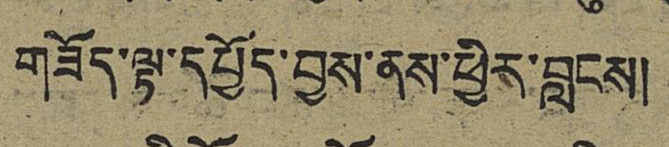གཟོད་ལྟ་དཔྱོད་བྱས་ནས་ཕྱིར་བླངས།
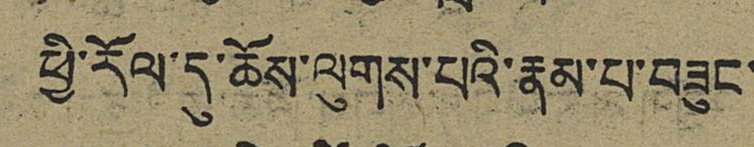ཕྱི་རོལ་དུ་ཆོས་ལུགས་པའི་རྣམ་པ་བཟུང་
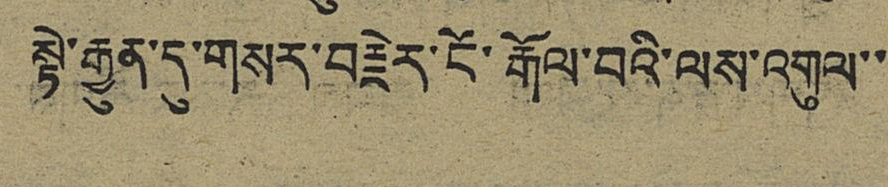སྟེ་རྒྱུན་དུ་གསར་བརྗེར་ངོ་རྒོལ་བའི་ལས་འགུལ་་
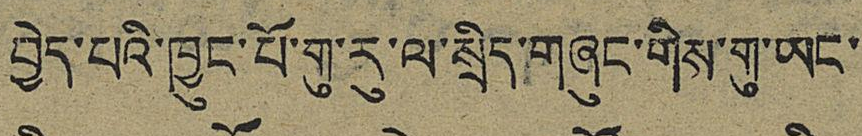བྱེད་པའི་ཁྱུང་པོ་གུ་རུ་ལ་སྲིད་གཞུང་གིས་གུ་ཡང་
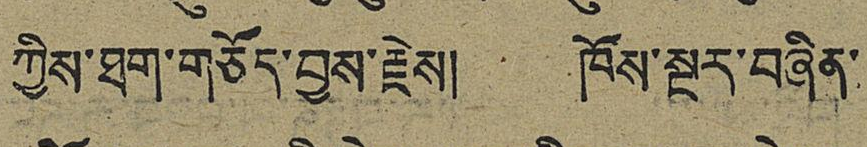ཀྱིས་ཐག་གཅོད་བྱས་རྗེས། ཁོས་སྔར་བཞིན་
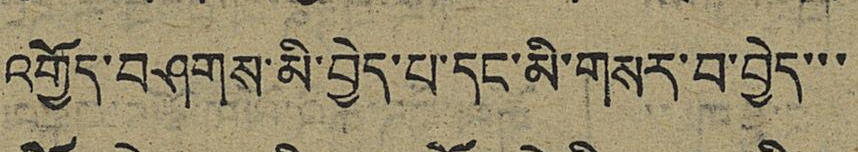འགྱོད་བཤགས་མི་བྱེད་པ་དང་མི་གསར་བ་བྱེད་་་
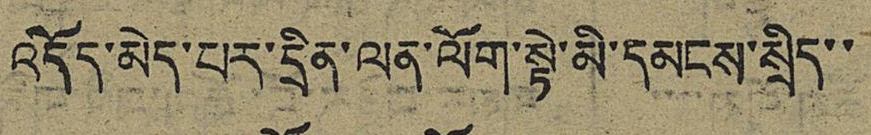འདོད་མེད་པར་དྲིན་ལན་ལོག་སྟེ་མི་དམངས་སྲིད་་
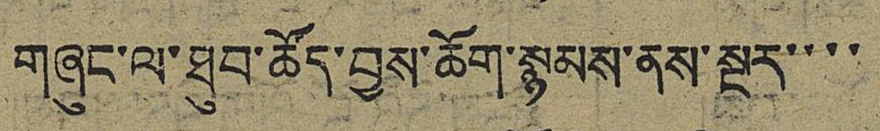གཞུང་ལ་ཐུབ་ཚོད་བྱས་ཆོག་སྙམས་ནས་སྔར་་་་
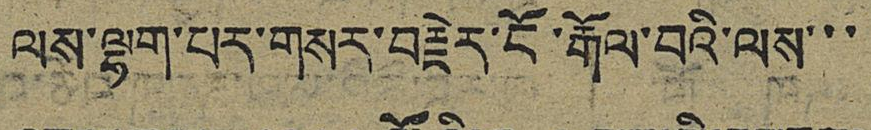ལས་ལྷག་པར་གསར་བརྗེར་ངོ་རྒོལ་བའི་ལས་་་
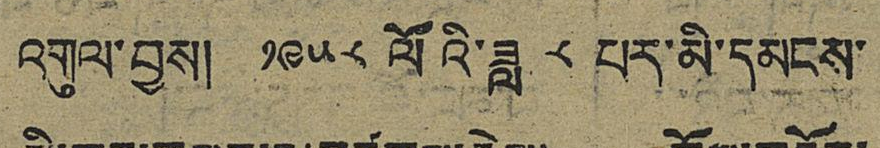འགུལ་བྱས། ༡༩༥༨ ལོའི་ཟླ ༨ པར་མི་དམངས་
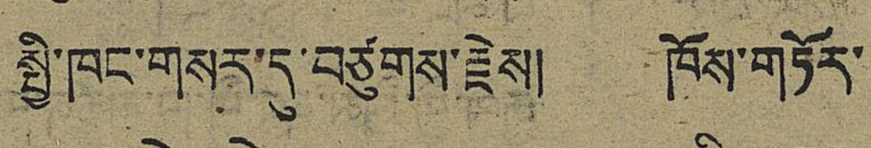སྤྱི་ཁང་གསར་དུ་བཙུགས་རྗེས། ཁོས་གཏོར་
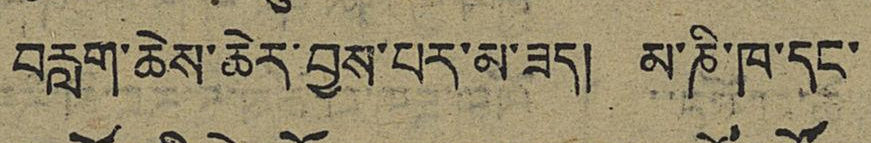བརླག་ཆེས་ཆེར་བྱས་པར་མ་ཟད། མ་ཎི་ཁ་དང་
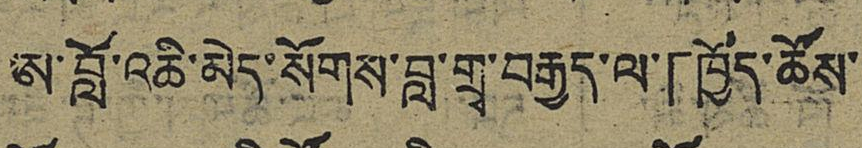ཨ་བློ་འཆི་མེད་སོགས་བླ་གྲྭ་བརྒྱད་ལ་「ཁྱོད་ཚོས་
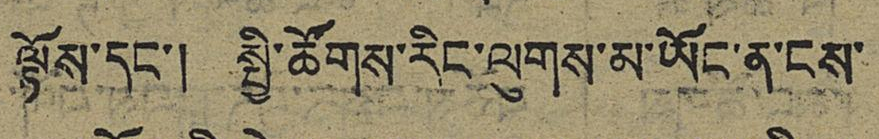ལྟོས་དང་། སྤྱི་ཚོགས་རིང་ལུགས་མ་ཡོང་ན་ངས་
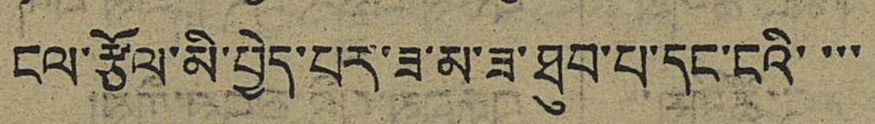ངལ་རྩོལ་མི་བྱེད་པར་ཟ་མ་ཟ་ཐུབ་པ་དང་ངའི་་་་
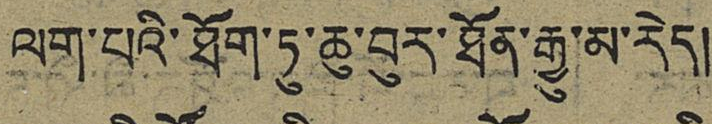ལག་པའི་ཐོག་ཏུ་ཆུ་བུར་ཐོན་རྒྱུ་མ་རེད།
